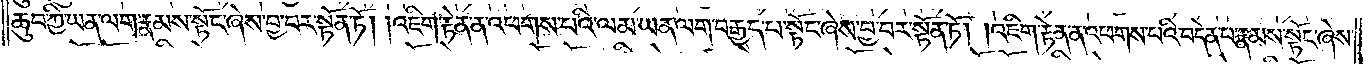ཆུབ་ཀྱི་ཡན་ལག་རྣམས་སྟོང་ཞེས་བྱ་བར་སྟོན་ཏོ། །འཇིག་རྟེན་ན་འཕགས་པའི་ལམ་ཡན་ལག་བརྒྱད་པ་སྟོང་ཞེས་བྱ་བར་སྟོན་ཏོ། །འཇིག་རྟེན་ན་འཕགས་པའི་བདེན་པ་རྣམས་སྟོང་ཞེས་
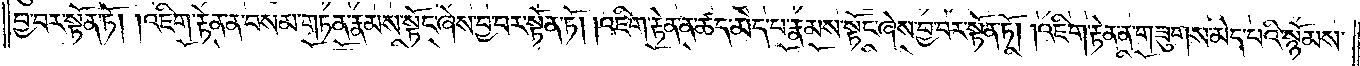བྱ་བར་སྟོན་ཏོ། །འཇིག་རྟེན་ན་བསམ་གཏན་རྣམས་སྟོང་ཞེས་བྱ་བར་སྟོན་ཏོ། །འཇིག་རྟེན་ན་ཚད་མེད་པ་རྣམས་སྟོང་ཞེས་བྱ་བར་སྟོན་ཏོ། །འཇིག་རྟེན་ན་གཟུགས་མེད་པའི་སྙོམས་
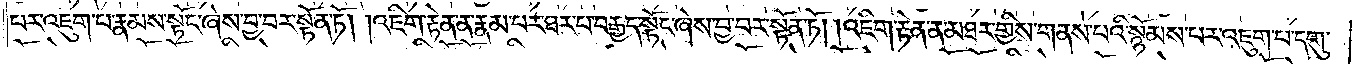པར་འཇུག་པ་རྣམས་སྟོང་ཞེས་བྱ་བར་སྟོན་ཏོ། །འཇིག་རྟེན་ན་རྣམ་པར་ཐར་པ་བརྒྱད་སྟོང་ཞེས་བྱ་བར་སྟོན་ཏོ། །འཇིག་རྟེན་ན་མཐར་གྱིས་གནས་པའི་སྙོམས་པར་འཇུག་པ་དགུ་
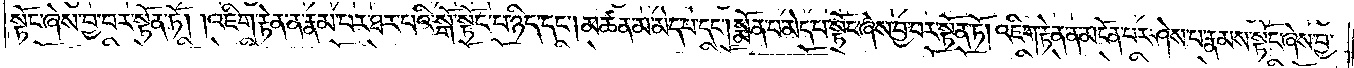སྟོང་ཞེས་བྱ་བར་སྟོན་ཏོ། །འཇིག་རྟེན་ན་རྣམ་པར་ཐར་པའི་སྒོ་སྟོང་པ་ཉིད་དང༌། མཚན་མ་མེད་པ་དང༌། སྨོན་པ་མེད་པ་སྟོང་ཞེས་བྱ་བར་སྟོན་ཏོ། །འཇིག་རྟེན་ན་མངོན་པར་ཤེས་པ་རྣམས་སྟོང་ཞེས་བྱ་
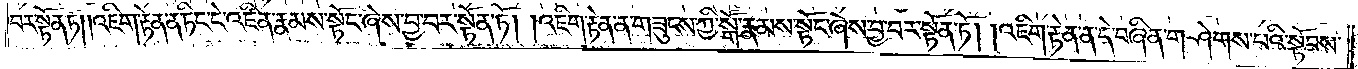བར་སྟོན་ཏོ། །འཇིག་རྟེན་ན་ཏིང་ངེ་འཛིན་རྣམས་སྟོང་ཞེས་བྱ་བར་སྟོན་ཏོ། །འཇིག་རྟེན་ན་གཟུངས་ཀྱི་སྒོ་རྣམས་སྟོང་ཞེས་བྱ་བར་སྟོན་ཏོ། །འཇིག་རྟེན་ན་དེ་བཞིན་གཤེགས་པའི་སྟོབས་
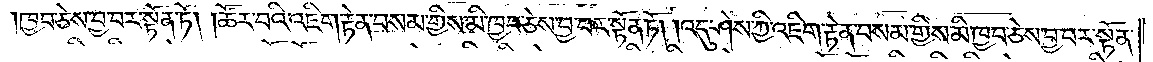ཁྱབ་ཅེས་བྱ་བར་སྟོན་ཏོ། །ཚོར་བའི་འཇིག་རྟེན་བསམ་གྱིས་མི་ཁྱབ་ཅེས་བྱ་བར་སྟོན་ཏོ། །འདུ་ཤེས་ཀྱི་འཇིག་རྟེན་བསམ་གྱིས་མི་ཁྱབ་ཅེས་བྱ་བར་སྟོན་
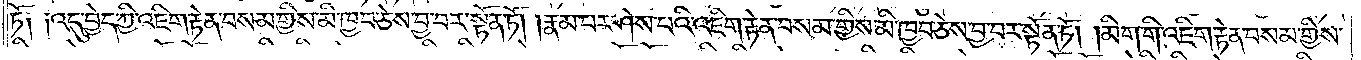ཏོ༑ ༑འདུ་བྱེད་ཀྱི་འཇིག་རྟེན་བསམ་གྱིས་མི་ཁྱབ་ཅེས་བྱ་བར་སྟོན་ཏོ། །རྣམ་པར་ཤེས་པའི་འཇིག་རྟེན་བསམ་གྱིས་མི་ཁྱབ་ཅེས་བྱ་བར་སྟོན་ཏོ། །མིག་གི་འཇིག་རྟེན་བསམ་གྱིས་
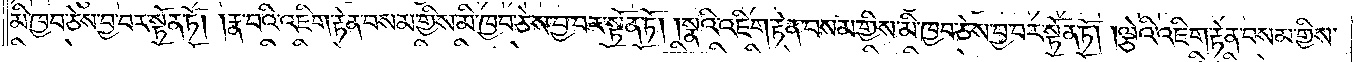མི་ཁྱབ་ཅེས་བྱ་བར་སྟོན་ཏོ། །རྣ་བའི་འཇིག་རྟེན་བསམ་གྱིས་མི་ཁྱབ་ཅེས་བྱ་བར་སྟོན་ཏོ། །སྣའི་འཇིག་རྟེན་བསམ་གྱིས་མི་ཁྱབ་ཅེས་བྱ་བར་སྟོན་ཏོ། །ལྕེའི་འཇིག་རྟེན་བསམ་གྱིས་
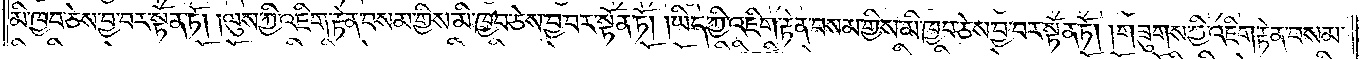མི་ཁྱབ་ཅེས་བྱ་བར་སྟོན་ཏོ། །ལུས་ཀྱི་འཇིག་རྟེན་བསམ་གྱིས་མི་ཁྱབ་ཅེས་བྱ་བར་སྟོན་ཏོ། །ཡིད་ཀྱི་འཇིག་རྟེན་བསམ་གྱིས་མི་ཁྱབ་ཅེས་བྱ་བར་སྟོན་ཏོ། །གཟུགས་ཀྱི་འཇིག་རྟེན་བསམ་
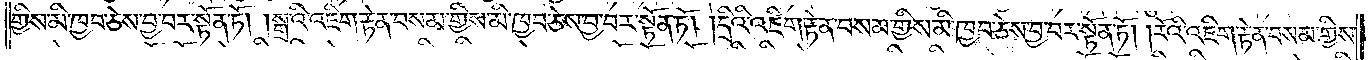གྱིས་མི་ཁྱབ་ཅེས་བྱ་བར་སྟོན་ཏོ། །སྒྲའི་འཇིག་རྟེན་བསམ་གྱིས་མི་ཁྱབ་ཅེས་བྱ་བར་སྟོན་ཏོ། །དྲིའི་འཇིག་རྟེན་བསམ་གྱིས་མི་ཁྱབ་ཅེས་བྱ་བར་སྟོན་ཏོ། །རོའི་འཇིག་རྟེན་བསམ་གྱིས་
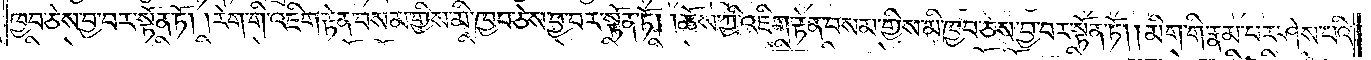ཁྱབ་ཅེས་བྱ་བར་སྟོན་ཏོ། །རེག་གི་འཇིག་རྟེན་བསམ་གྱིས་མི་ཁྱབ་ཅེས་བྱ་བར་སྟོན་ཏོ། །ཆོས་ཀྱི་འཇིག་རྟེན་བསམ་གྱིས་མི་ཁྱབ་ཅེས་བྱ་བར་སྟོན་ཏོ། །མིག་གི་རྣམ་པར་ཤེས་པའི་
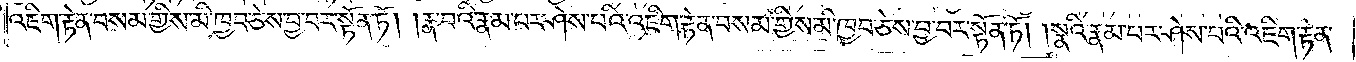འཇིག་རྟེན་བསམ་གྱིས་མི་ཁྱབ་ཅེས་བྱ་བར་སྟོན་ཏོ། །རྣ་བའི་རྣམ་པར་ཤེས་པའི་འཇིག་རྟེན་བསམ་གྱིས་མི་ཁྱབ་ཅེས་བྱ་བར་སྟོན་ཏོ། །སྣའི་རྣམ་པར་ཤེས་པའི་འཇིག་རྟེན་
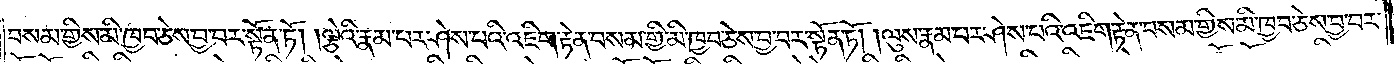བསམ་གྱིས་མི་ཁྱབ་ཅེས་བྱ་བར་སྟོན་ཏོ། །ལྕེའི་རྣམ་པར་ཤེས་པའི་འཇིག་རྟེན་བསམ་གྱིས་མི་ཁྱབ་ཅེས་བྱ་བར་སྟོན་ཏོ། །ལུས་ཀྱི་རྣམ་པར་ཤེས་པའི་འཇིག་རྟེན་བསམ་གྱིས་མི་ཁྱབ་ཅེས་བྱ་བར་
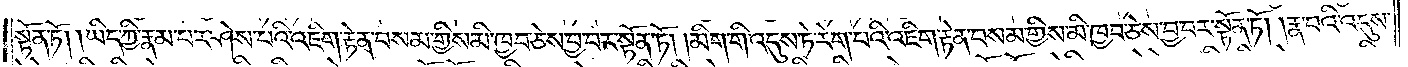སྟོན་ཏོ། །ཡིད་ཀྱི་རྣམ་པར་ཤེས་པའི་འཇིག་རྟེན་བསམ་གྱིས་མི་ཁྱབ་ཅེས་བྱ་བར་སྟོན་ཏོ། །མིག་གི་འདུས་ཏེ་རེག་པའི་འཇིག་རྟེན་བསམ་གྱིས་མི་ཁྱབ་ཅེས་བྱ་བར་སྟོན་ཏོ། །རྣ་བའི་འདུས་
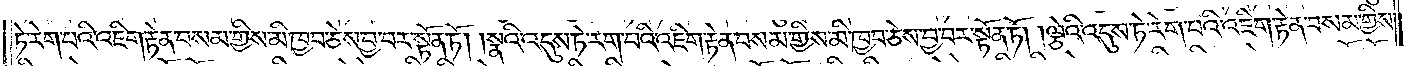ཏེ་རེག་པའི་འཇིག་རྟེན་བསམ་གྱིས་མི་ཁྱབ་ཅེས་བྱ་བར་སྟོན་ཏོ། །སྣའི་འདུས་ཏེ་རེག་པའི་འཇིག་རྟེན་བསམ་གྱིས་མི་ཁྱབ་ཅེས་བྱ་བར་སྟོན་ཏོ། །ལྕེའི་འདུས་ཏེ་རེག་པའི་འཇིག་རྟེན་བསམ་གྱིས་
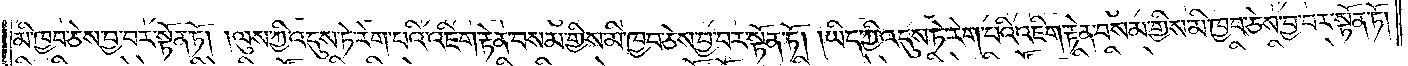མི་ཁྱབ་ཅེས་བྱ་བར་སྟོན་ཏོ། །ལུས་ཀྱི་འདུས་ཏེ་རེག་པའི་འཇིག་རྟེན་བསམ་གྱིས་མི་ཁྱབ་ཅེས་བྱ་བར་སྟོན་ཏོ། །ཡིད་ཀྱི་འདུས་ཏེ་རེག་པའི་འཇིག་རྟེན་བསམ་གྱིས་མི་ཁྱབ་ཅེས་བྱ་བར་སྟོན་ཏོ། །
